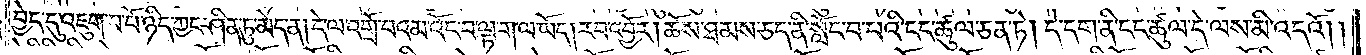བྱེད་དུ་འཇུག་པ་པོ་ཉིད་ཀྱང་ཤིན་ཏུ་མེད་ན། དེ་ལ་འགྲོ་བའམ་འོང་བ་ལྟ་ག་ལ་ཡོད། རབ་འབྱོར། ཆོས་ཐམས་ཅད་ནི་སློང་བ་པོའི་ངང་ཚུལ་ཅན་ཏེ། དེ་དག་ནི་ངང་ཚུལ་དེ་ལས་མི་འདའོ། །
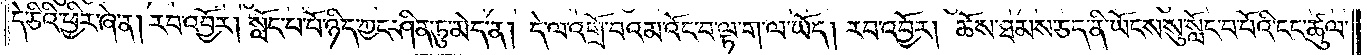དེ་ཅིའི་ཕྱིར་ཞེ་ན། རབ་འབྱོར། སློང་པ་པོ་ཉིད་ཀྱང་ཤིན་ཏུ་མེད་ན། དེ་ལ་འགྲོ་བའམ་འོང་བ་ལྟ་ག་ལ་ཡོད། རབ་འབྱོར། ཆོས་ཐམས་ཅད་ནི་ཡོངས་སུ་སློང་བ་པོའི་ངང་ཚུལ་
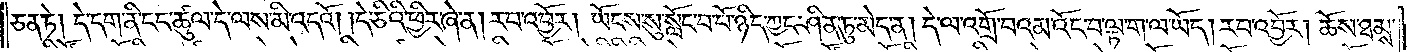ཅན་ཏེ། དེ་དག་ནི་ངང་ཚུལ་དེ་ལས་མི་འདའོ། །དེ་ཅིའི་ཕྱིར་ཞེ་ན། རབ་འབྱོར། ཡོངས་སུ་སློང་བ་པོ་ཉིད་ཀྱང་ཤིན་ཏུ་མེད་ན། དེ་ལ་འགྲོ་བའམ་འོང་བ་ལྟ་ག་ལ་ཡོད། རབ་འབྱོར། ཆོས་ཐམས་
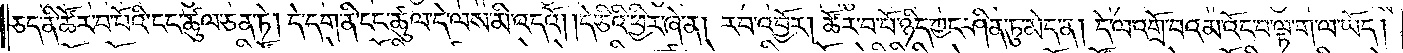ཅད་ནི་ཚོར་བ་པོའི་ངང་ཚུལ་ཅན་ཏེ། དེ་དག་ནི་ངང་ཚུལ་དེ་ལས་མི་འདའོ། །དེ་ཅིའི་ཕྱིར་ཞེ་ན། རབ་འབྱོར། ཚོར་བ་པོ་ཉིད་ཀྱང་ཤིན་ཏུ་མེད་ན། དེ་ལ་འགྲོ་བའམ་འོང་བ་ལྟ་ག་ལ་ཡོད།
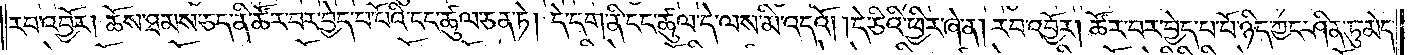རབ་འབྱོར། ཆོས་ཐམས་ཅད་ནི་ཚོར་བར་བྱེད་པ་པོའི་ངང་ཚུལ་ཅན་ཏེ། དེ་དག་ནི་ངང་ཚུལ་དེ་ལས་མི་འདའོ། །དེ་ཅིའི་ཕྱིར་ཞེ་ན། རབ་འབྱོར། ཚོར་བར་བྱེད་པ་པོ་ཉིད་ཀྱང་ཤིན་ཏུ་མེད་
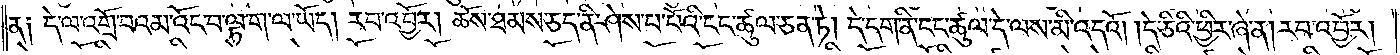ན༑ དེ་ལ་འགྲོ་བའམ་འོང་བ་ལྟ་ག་ལ་ཡོད། རབ་འབྱོར། ཆོས་ཐམས་ཅད་ནི་ཤེས་པ་པོའི་ངང་ཚུལ་ཅན་ཏེ། དེ་དག་ནི་ངང་ཚུལ་དེ་ལས་མི་འདའོ། །དེ་ཅིའི་ཕྱིར་ཞེ་ན། རབ་འབྱོར།
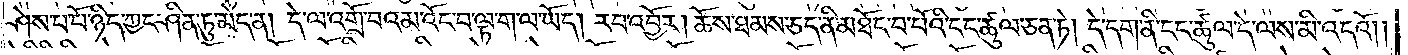ཤེས་པ་པོ་ཉིད་ཀྱང་ཤིན་ཏུ་མེད་ན། དེ་ལ་འགྲོ་བའམ་འོང་བ་ལྟ་ག་ལ་ཡོད། རབ་འབྱོར། ཆོས་ཐམས་ཅད་ནི་མཐོང་བ་པོའི་ངང་ཚུལ་ཅན་ཏེ། དེ་དག་ནི་ངང་ཚུལ་དེ་ལས་མི་འདའོ། །
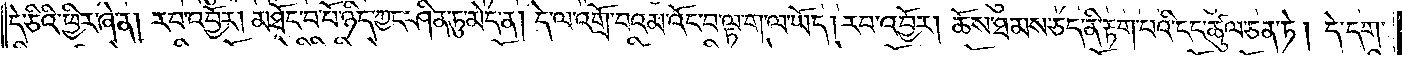དེ་ཅིའི་ཕྱིར་ཞེ་ན། རབ་འབྱོར། མཐོང་བ་པོ་ཉིད་ཀྱང་ཤིན་ཏུ་མེད་ན། དེ་ལ་འགྲོ་བའམ་འོང་བ་ལྟ་ག་ལ་ཡོད། རབ་འབྱོར། ཆོས་ཐམས་ཅད་ནི་རྟག་པའི་ངང་ཚུལ་ཅན་ཏེ། དེ་དག་
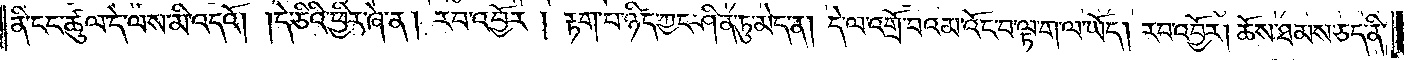ནི་ངང་ཚུལ་དེ་ལས་མི་འདའོ། །དེ་ཅིའི་ཕྱིར་ཞེ་ན། རབ་འབྱོར། རྟག་པ་ཉིད་ཀྱང་ཤིན་ཏུ་མེད་ན། དེ་ལ་འགྲོ་བའམ་འོང་བ་ལྟ་ག་ལ་ཡོད། རབ་འབྱོར། ཆོས་ཐམས་ཅད་ནི་
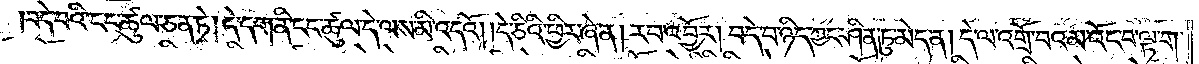བདེ་བའི་ངང་ཚུལ་ཅན་ཏེ། དེ་དག་ནི་ངང་ཚུལ་དེ་ལས་མི་འདའོ། །དེ་ཅིའི་ཕྱིར་ཞེ་ན། རབ་འབྱོར། བདེ་བ་ཉིད་ཀྱང་ཤིན་ཏུ་མེད་ན། དེ་ལ་འགྲོ་བའམ་འོང་བ་ལྟ་ག་
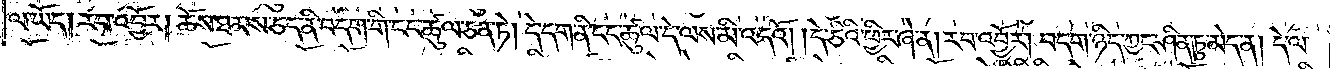ལ་ཡོད། རབ་འབྱོར། ཆོས་ཐམས་ཅད་ནི་བདག་གི་ངང་ཚུལ་ཅན་ཏེ། དེ་དག་ནི་ངང་ཚུལ་དེ་ལས་མི་འདའོ། །དེ་ཅིའི་ཕྱིར་ཞེ་ན། རབ་འབྱོར། བདག་ཉིད་ཀྱང་ཤིན་ཏུ་མེད་ན། དེ་ལ་
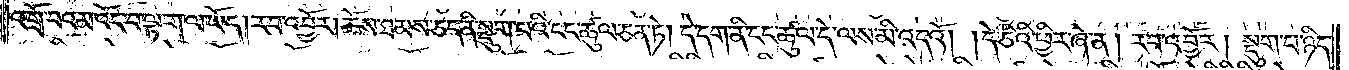འགྲོ་བའམ་འོང་བ་ལྟ་ག་ལ་ཡོད། རབ་འབྱོར། ཆོས་ཐམས་ཅད་ནི་སྡུག་པའི་ངང་ཚུལ་ཅན་ཏེ། དེ་དག་ནི་ངང་ཚུལ་དེ་ལས་མི་འདའོ། །དེ་ཅིའི་ཕྱིར་ཞེ་ན། རབ་འབྱོར། སྡུག་པ་ཉིད་
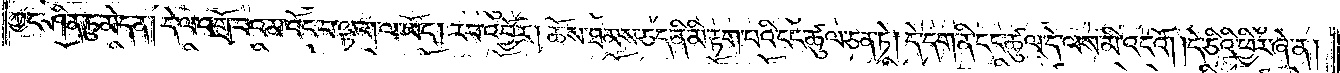ཀྱང་ཤིན་ཏུ་མེད་ན། དེ་ལ་འགྲོ་བའམ་འོང་བ་ལྟ་ག་ལ་ཡོད། རབ་འབྱོར། ཆོས་ཐམས་ཅད་ནི་མི་རྟག་པའི་ངང་ཚུལ་ཅན་ཏེ། དེ་དག་ནི་ངང་ཚུལ་དེ་ལས་མི་འདའོ། །དེ་ཅིའི་ཕྱིར་ཞེ་ན།
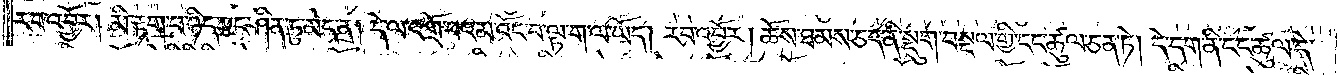རབ་འབྱོར། མི་རྟག་པ་ཉིད་ཀྱང་ཤིན་ཏུ་མེད་ན། དེ་ལ་འགྲོ་བའམ་འོང་བ་ལྟ་ག་ལ་ཡོད། རབ་འབྱོར། ཆོས་ཐམས་ཅད་ནི་སྡུག་བསྔལ་གྱི་ངང་ཚུལ་ཅན་ཏེ། དེ་དག་ནི་ངང་ཚུལ་དེ་
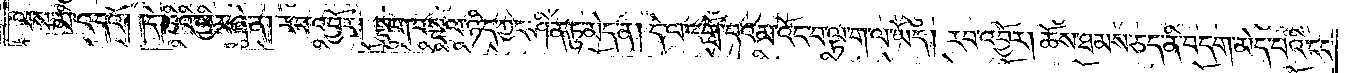ལས་མི་འདའོ། །དེ་ཅིའི་ཕྱིར་ཞེ་ན། རབ་འབྱོར། སྡུག་བསྔལ་ཉིད་ཀྱང་ཤིན་ཏུ་མེད་ན། དེ་ལ་འགྲོ་བའམ་འོང་བ་ལྟ་ག་ལ་ཡོད། རབ་འབྱོར། ཆོས་ཐམས་ཅད་ནི་བདག་མེད་པའི་ངང་
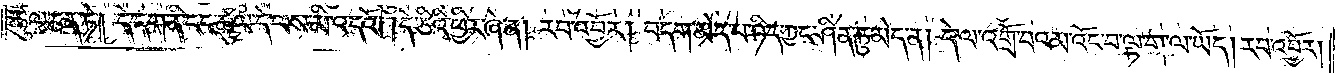ཚུལ་ཅན་ཏེ། དེ་དག་ནི་ངང་ཚུལ་དེ་ལས་མི་འདའོ། །དེ་ཅིའི་ཕྱིར་ཞེ་ན། རབ་འབྱོར། བདག་མེད་པ་ཉིད་ཀྱང་ཤིན་ཏུ་མེད་ན། དེ་ལ་འགྲོ་བའམ་འོང་བ་ལྟ་ག་ལ་ཡོད། རབ་འབྱོར།
